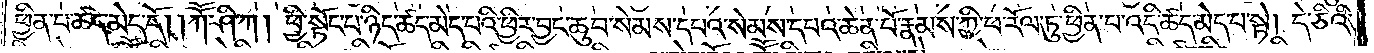ཕྱིན་པ་ཚད་མེད་དོ། །ཀཽ་ཤི་ཀ། ཕྱི་སྟོང་པ་ཉིད་ཚད་མེད་པའི་ཕྱིར་བྱང་ཆུབ་སེམས་དཔའ་སེམས་དཔའ་ཆེན་པོ་རྣམས་ཀྱི་ཕ་རོལ་ཏུ་ཕྱིན་པ་འདི་ཚད་མེད་པ་སྟེ། དེ་ཅིའི་
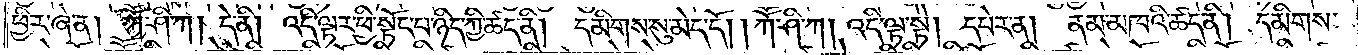ཕྱིར་ཞེ་ན། ཀཽ་ཤི་ཀ། དེ་ནི། འདི་ལྟར་ཕྱི་སྟོང་པ་ཉིད་ཀྱི་ཚད་ནི། དམིགས་སུ་མེད་དོ། །ཀཽ་ཤི་ཀ། འདི་ལྟ་སྟེ། དཔེར་ན། ནམ་མཁའི་ཚད་ནི། དམིགས་
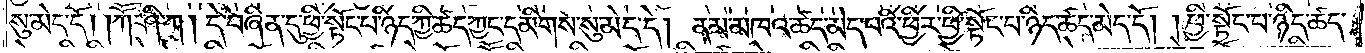སུ་མེད་དོ། །ཀཽ་ཤི་ཀ། དེ་བཞིན་དུ་ཕྱི་སྟོང་པ་ཉིད་ཀྱི་ཚད་ཀྱང་དམིགས་སུ་མེད་དེ། ནམ་མཁའ་ཚད་མེད་པའི་ཕྱིར་ཕྱི་སྟོང་པ་ཉིད་ཚད་མེད་དོ། །ཕྱི་སྟོང་པ་ཉིད་ཚད་
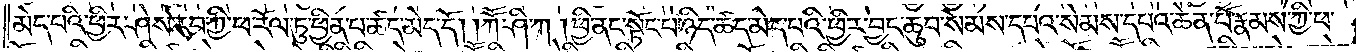མེད་པའི་ཕྱིར་ཤེས་རབ་ཀྱི་ཕ་རོལ་ཏུ་ཕྱིན་པ་ཚད་མེད་དོ། །ཀཽ་ཤི་ཀ། ཕྱི་ནང་སྟོང་པ་ཉིད་ཚད་མེད་པའི་ཕྱིར་བྱང་ཆུབ་སེམས་དཔའ་སེམས་དཔའ་ཆེན་པོ་རྣམས་ཀྱི་ཕ་
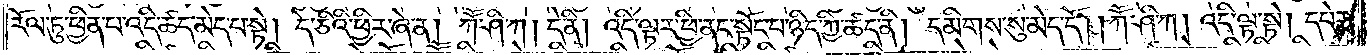རོལ་ཏུ་ཕྱིན་པ་འདི་ཚད་མེད་པ་སྟེ། དེ་ཅིའི་ཕྱིར་ཞེ་ན། ཀཽ་ཤི་ཀ། དེ་ནི། འདི་ལྟར་ཕྱི་ནང་སྟོང་པ་ཉིད་ཀྱི་ཚད་ནི། དམིགས་སུ་མེད་དོ། །ཀཽ་ཤི་ཀ། འདི་ལྟ་སྟེ། དཔེར་
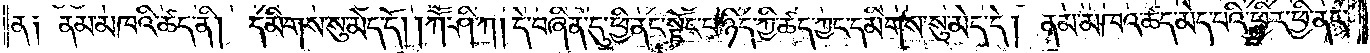ན༑ ནམ་མཁའི་ཚད་ནི། དམིགས་སུ་མེད་དོ། །ཀཽ་ཤི་ཀ། དེ་བཞིན་དུ་ཕྱི་ནང་སྟོང་པ་ཉིད་ཀྱི་ཚད་ཀྱང་དམིགས་སུ་མེད་དེ། ནམ་མཁའ་ཚད་མེད་པའི་ཕྱིར་ཕྱི་ནང་
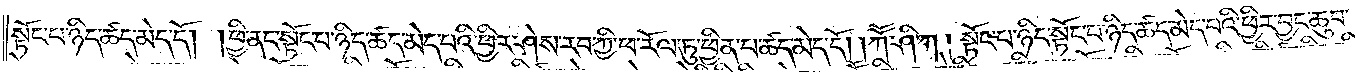སྟོང་པ་ཉིད་ཚད་མེད་དོ། །ཕྱི་ནང་སྟོང་པ་ཉིད་ཚད་མེད་པའི་ཕྱིར་ཤེས་རབ་ཀྱི་ཕ་རོལ་ཏུ་ཕྱིན་པ་ཚད་མེད་དོ། །ཀཽ་ཤི་ཀ། སྟོང་པ་ཉིད་སྟོང་པ་ཉིད་ཚད་མེད་པའི་ཕྱིར་བྱང་ཆུབ་
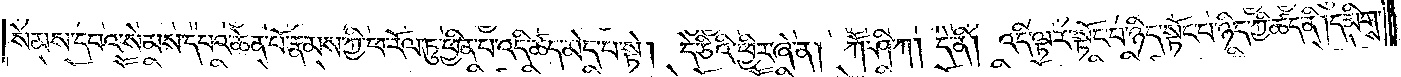སེམས་དཔའ་སེམས་དཔའ་ཆེན་པོ་རྣམས་ཀྱི་ཕ་རོལ་ཏུ་ཕྱིན་པ་འདི་ཚད་མེད་པ་སྟེ། དེ་ཅིའི་ཕྱིར་ཞེ་ན། ཀཽ་ཤི་ཀ། དེ་ནི། འདི་ལྟར་སྟོང་པ་ཉིད་སྟོང་པ་ཉིད་ཀྱི་ཚད་ནི། དམིགས་
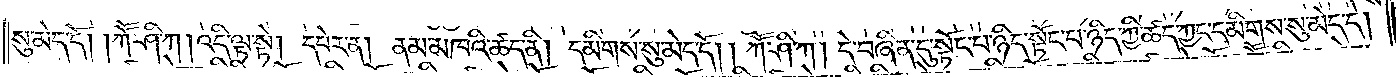སུ་མེད་དོ། །ཀཽ་ཤི་ཀ། འདི་ལྟ་སྟེ། དཔེར་ན། ནམ་མཁའི་ཚད་ནི། དམིགས་སུ་མེད་དོ། །ཀཽ་ཤི་ཀ། དེ་བཞིན་དུ་སྟོང་པ་ཉིད་སྟོང་པ་ཉིད་ཀྱི་ཚད་ཀྱང་དམིགས་སུ་མེད་དེ།
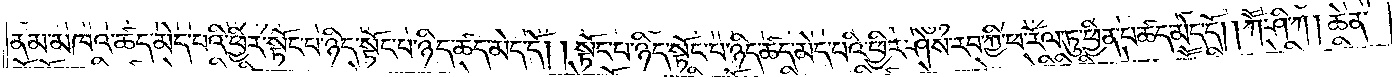ནམ་མཁའ་ཚད་མེད་པའི་ཕྱིར་སྟོང་པ་ཉིད་སྟོང་པ་ཉིད་ཚད་མེད་དོ། །སྟོང་པ་ཉིད་སྟོང་པ་ཉིད་ཚད་མེད་པའི་ཕྱིར་ཤེས་རབ་ཀྱི་ཕ་རོལ་ཏུ་ཕྱིན་པ་ཚད་མེད་དོ། །ཀཽ་ཤི་ཀ། ཆེན་
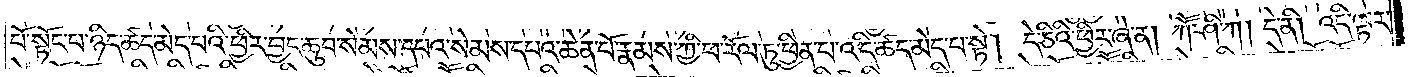པོ་སྟོང་པ་ཉིད་ཚད་མེད་པའི་ཕྱིར་བྱང་ཆུབ་སེམས་དཔའ་སེམས་དཔའ་ཆེན་པོ་རྣམས་ཀྱི་ཕ་རོལ་ཏུ་ཕྱིན་པ་འདི་ཚད་མེད་པ་སྟེ། དེ་ཅིའི་ཕྱིར་ཞེ་ན། ཀཽ་ཤི་ཀ། དེ་ནི། འདི་ལྟར་
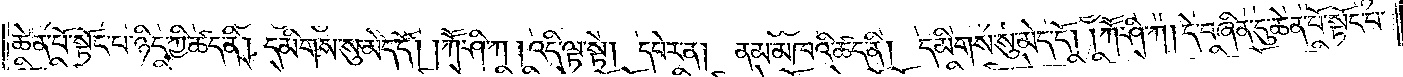ཆེན་པོ་སྟོང་པ་ཉིད་ཀྱི་ཚད་ནི། དམིགས་སུ་མེད་དོ། །ཀཽ་ཤི་ཀ། འདི་ལྟ་སྟེ། དཔེར་ན། ནམ་མཁའི་ཚད་ནི། དམིགས་སུ་མེད་དོ། །ཀཽ་ཤི་ཀ། དེ་བཞིན་དུ་ཆེན་པོ་སྟོང་པ་
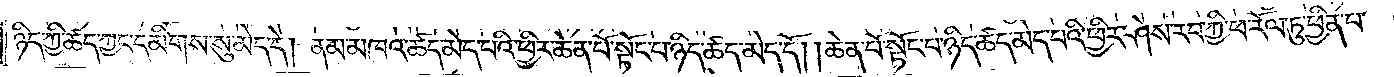ཉིད་ཀྱི་ཚད་ཀྱང་དམིགས་སུ་མེད་དེ། ནམ་མཁའ་ཚད་མེད་པའི་ཕྱིར་ཆེན་པོ་སྟོང་པ་ཉིད་ཚད་མེད་དོ། །ཆེན་པོ་སྟོང་པ་ཉིད་ཚད་མེད་པའི་ཕྱིར་ཤེས་རབ་ཀྱི་ཕ་རོལ་ཏུ་ཕྱིན་པ་
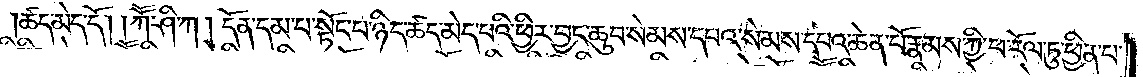ཚད་མེད་དོ། །ཀཽ་ཤི་ཀ། དོན་ནམ་པ་སྟོང་པ་ཉིད་ཚད་མེད་པའི་ཕྱིར་བྱང་ཆུབ་སེམས་དཔའ་སེམས་དཔའ་ཆེན་པོ་རྣམས་ཀྱི་ཕ་རོལ་ཏུ་ཕྱིན་པ་
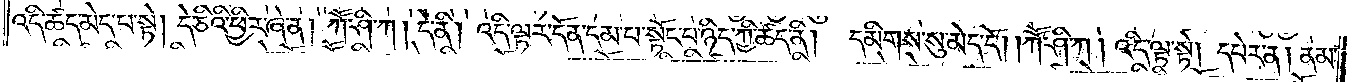འདི་ཚད་མེད་པ་སྟེ། དེ་ཅིའི་ཕྱིར་ཞེ་ན། ཀཽ་ཤི་ཀ། དེ་ནི། འདི་ལྟར་དོན་དམ་པ་སྟོང་པ་ཉིད་ཀྱི་ཚད་ནི། དམིགས་སུ་མེད་དོ། །ཀཽ་ཤི་ཀ། འདི་ལྟ་སྟེ། དཔེར་ན། ནམ་
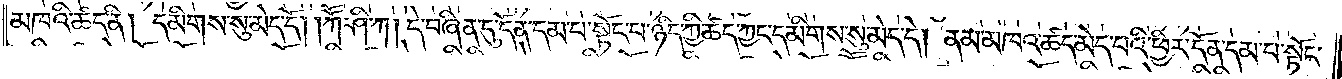མཁའི་ཚད་ནི། དམིགས་སུ་མེད་དོ། །ཀཽ་ཤི་ཀ། དེ་བཞིན་དུ་དོན་དམ་པ་སྟོང་པ་ཉིད་ཀྱི་ཚད་ཀྱང་དམིགས་སུ་མེད་དེ། ནམ་མཁའ་ཚད་མེད་པའི་ཕྱིར་དོན་དམ་པ་སྟོང་
